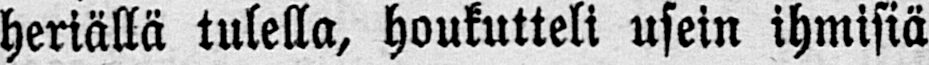heriällä tulella, houkutteli usein ihmisiä
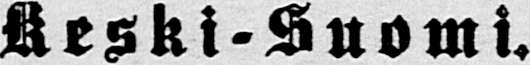Keski-Suomi.
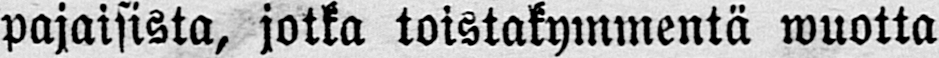pajaisista, jotka toistakymmentä wuotta
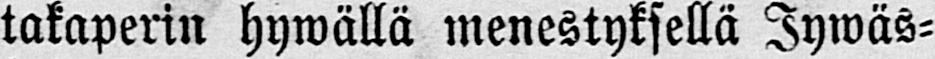takaperin hywällä menestyksellä Jywäs-
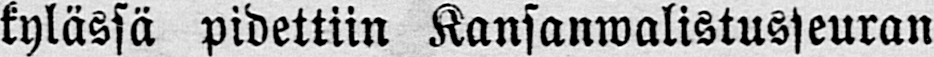kylässä pidettiin Kansanwalistusseuran
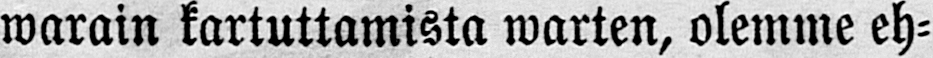warain kartuttamista warten, olemme eh-
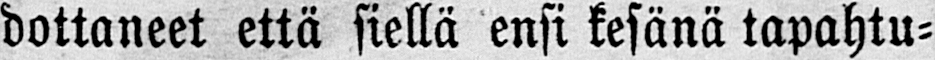dottaneet että siellä ensi kesänä tapahtu-
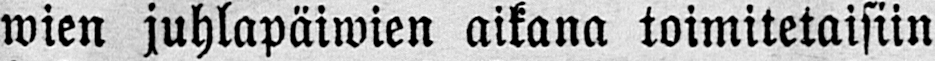wien juhlapäiwien aikana toimitetaisiin
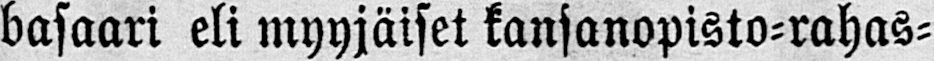basaari eli myyjäiset kansanopisto-rahas-
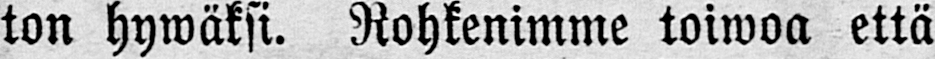ton hywäksi. Rohkenimme toiwoa että
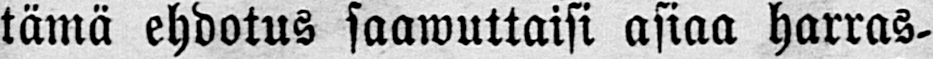tämä ehdotus saawuttaisi asiaa harras-
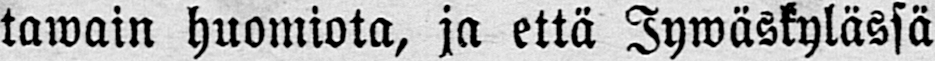tawain huomiota, ja että Jywäskylässä
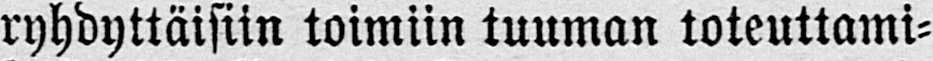ryhdyttäisiin toimiin tuuman toteuttami-
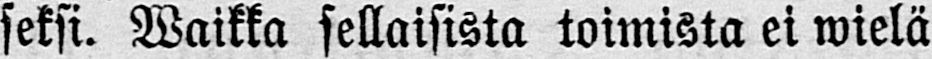seksi. Waikka sellaisista toimista ei wielä
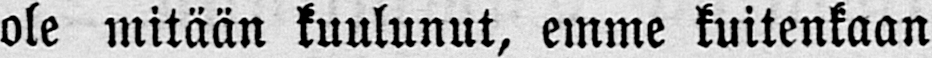ole mitään kuulunut, emme kuitenkaan
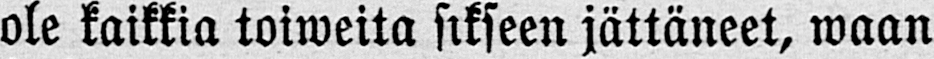ole kaikkia toiweita sikseen jättäneet, waan
